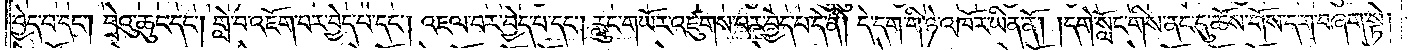བྱེད་པ་དང༌། བྲེའུ་ཆུང་དང༌། གླེ་བ་འཇོག་བར་བྱེད་པ་དང༌། འཇལ་བར་བྱེད་པ་དང༌། རླུང་གཡོར་འཛུགས་པར་བྱེད་པ་དེ་ནི། དེ་དག་གི་ཉེ་འཁོར་ཡིན་ནོ། །དགེ་སློང་གིས་ནང་དུ་ཆོས་གོས་དག་བཞག་སྟེ།
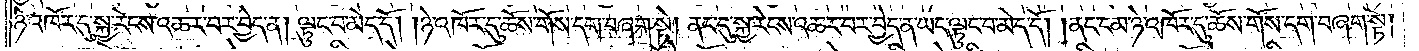ཉེ་འཁོར་དུ་སྐྱ་རེངས་འཆར་བར་བྱེད་ན། ལྟུང་བ་མེད་དོ། །ཉེ་འཁོར་དུ་ཆོས་གོས་དག་བཞག་སྟེ། ནང་དུ་སྐྱ་རེངས་འཆར་བར་བྱེད་ན་ཡང་ལྟུང་བ་མེད་དོ། །ནང་ངམ་ཉེ་འཁོར་དུ་ཆོས་གོས་དག་བཞག་སྟེ།
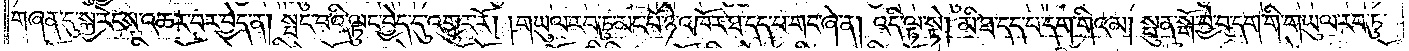གཞན་དུ་སྐྱ་རེངས་འཆར་བར་བྱེད་ན། སྤང་བའི་ལྟུང་བྱེད་དུ་འགྱུར་རོ། །གཡུལ་རབ་ཏུ་མང་པོ་ཉེ་འཁོར་ཐ་དད་པ་གང་ཞེ་ན། འདི་ལྟ་སྟེ། མི་ཐ་དད་པ་དག་གིའམ། སྤུན་སྒོ་བྱེ་བ་དག་གི་གཡུལ་རབ་ཏུ་
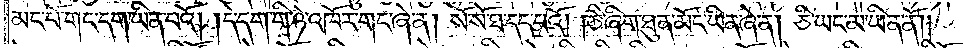མང་པོ་གང་དག་ཡིན་པའོ། །དེ་དག་གི་ཉེ་འཁོར་གང་ཞེ་ན། སོ་སོ་ཐ་དད་པའོ། །ཅི་ཞིག་ཐུན་མོང་ཡིན་ཞེ་ན། ཅི་ཡང་མ་ཡིན་ནོ༎
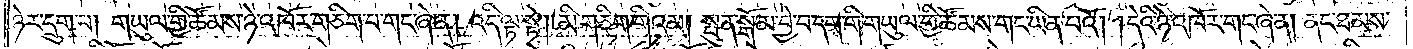ཉེར་དྲུག་པ། གཡུལ་གྱི་ཚོམས་ཉེ་འཁོར་གཅིག་པ་གང་ཞེ་ན། འདི་ལྟ་སྟེ། མི་གཅིག་གིའམ། སྤུན་སྒོ་མ་བྱེ་བ་དག་གི་གཡུལ་གྱི་ཚོམས་གང་ཡིན་པའོ། །དེའི་ཉེ་འཁོར་གང་ཞེ་ན། ནང་ཐམས་
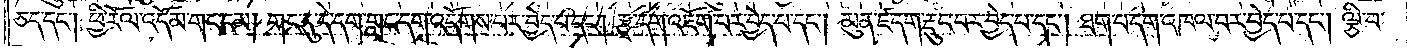ཅད་དང༌། ཕྱི་རོལ་འདོམ་གང་ངམ། གང་དུ་དེ་དག་གླང་དག་འདོགས་པར་བྱེད་པ་དང༌། རྩྭ་དག་འཇོག་པར་བྱེད་པ་དང༌། མུན་ཛ་དག་རྡུང་བར་བྱེད་པ་དང༌། ཐག་པ་དག་འཁལ་བར་བྱེད་པ་དང༌། ལྕི་བ་
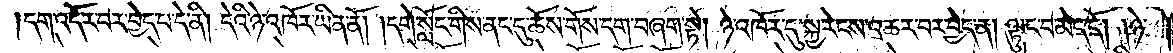དག་འདོར་བར་བྱེད་པ་དེ་ནི། དེའི་ཉེ་འཁོར་ཡིན་ནོ། །དགེ་སློང་གིས་ནང་དུ་ཆོས་གོས་དག་བཞག་སྟེ། ཉེ་འཁོར་དུ་སྐྱ་རེངས་འཆར་བར་བྱེད་ན། ལྟུང་བ་མེད་དོ། །ཉེ་
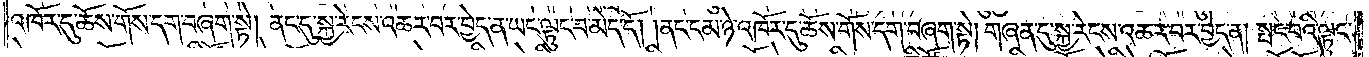འཁོར་དུ་ཆོས་གོས་དག་བཞག་སྟེ། ནང་དུ་སྐྱ་རེངས་འཆར་བར་བྱེད་ན་ཡང་ལྟུང་བ་མེད་དོ། །ནང་ངམ་ཉེ་འཁོར་དུ་ཆོས་གོས་དག་བཞག་སྟེ། གཞན་དུ་སྐྱ་རེངས་འཆར་བར་བྱེད་ན། སྤང་བའི་ལྟུང་
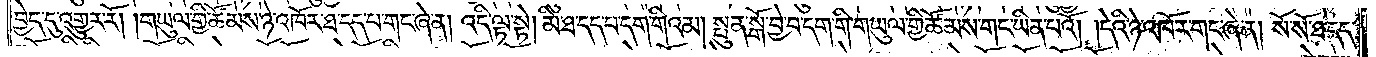བྱེད་དུ་འགྱུར་རོ། །གཡུལ་གྱི་ཚོམས་ཉེ་འཁོར་ཐ་དད་པ་གང་ཞེ་ན། འདི་ལྟ་སྟེ། མི་ཐ་དད་པ་དག་གིའམ། སྤུན་སྒོ་བྱེ་བ་དག་གི་གཡུལ་གྱི་ཚོམས་གང་ཡིན་པའོ། །དེའི་ཉེ་འཁོར་གང་ཞེ་ན། སོ་སོ་ཐ་དད་
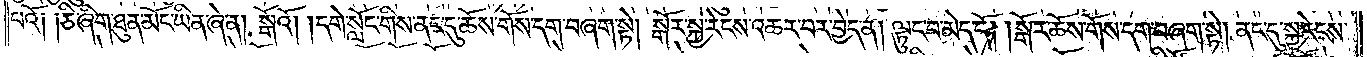པའོ༑ ༑ཅི་ཞིག་ཐུན་མོང་ཡིན་ཞེ་ན། སྒོའོ། །དགེ་སློང་གིས་ནང་དུ་ཆོས་གོས་དག་བཞག་སྟེ། སྒོར་སྐྱ་རེངས་འཆར་བར་བྱེད་ན། ལྟུང་བ་མེད་དོ། །སྒོར་ཆོས་གོས་དག་བཞག་སྟེ། ནང་དུ་སྐྱ་རེངས་
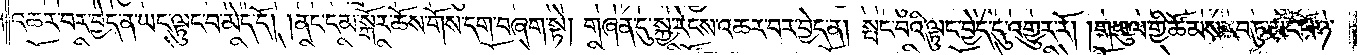འཆར་བར་བྱེད་ན་ཡང་ལྟུང་བ་མེད་དོ། །ནང་ངམ་སྒོར་ཆོས་གོས་དག་བཞག་སྟེ། གཞན་དུ་སྐྱ་རེངས་འཆར་བར་བྱེད་ན། སྤང་པའི་ལྟུང་བྱེད་དུ་འགྱུར་རོ། །གཡུལ་གྱི་ཚོམས་རབ་ཏུ་མང་པོ་ཉེ་
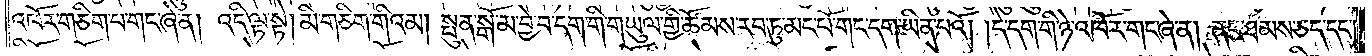འཁོར་གཅིག་པ་གང་ཞེ་ན། འདི་ལྟ་སྟེ། མི་གཅིག་གིའམ། སྤུན་སྒོ་མ་བྱེ་བ་དག་གི་གཡུལ་གྱི་ཚོམས་རབ་ཏུ་མང་པོ་གང་དག་ཡིན་པའོ། །དེ་དག་གི་ཉེ་འཁོར་གང་ཞེ་ན། ནང་ཐམས་ཅད་དང༌།
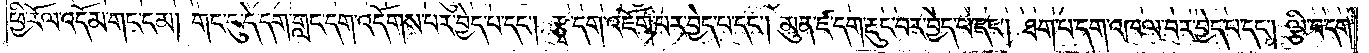ཕྱི་རོལ་འདོམ་གང་ངམ། གང་དུ་དེ་དག་གླང་དག་འདོགས་པར་བྱེད་པ་དང༌། རྩྭ་དག་འཇོག་པར་བྱེད་པ་དང༌། མུན་ཛ་དག་རྡུང་བར་བྱེད་པ་དང༌། ཐག་པ་དག་འཁལ་བར་བྱེད་པ་དང༌། ལྕི་བ་དག་
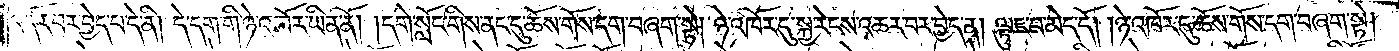འདོར་བར་བྱེད་པ་དེ་ནི། དེ་དག་གི་ཉེ་འཁོར་ཡིན་ནོ། །དགེ་སློང་གིས་ནང་དུ་ཆོས་གོས་དག་བཞག་སྟེ། ཉེ་འཁོར་དུ་སྐྱ་རེངས་འཆར་བར་བྱེད་ན། ལྟུང་བ་མེད་དོ། །ཉེ་འཁོར་དུ་ཆོས་གོས་དག་བཞག་སྟེ།
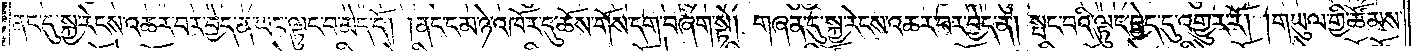ནང་དུ་སྐྱ་རེངས་འཆར་བར་བྱེད་ན་ཡང་ལྟུང་བ་མེད་དོ། །ནང་ངམ་ཉེ་འཁོར་དུ་ཆོས་གོས་དག་བཞག་སྟེ། གཞན་དུ་སྐྱ་རེངས་འཆར་བར་བྱེད་ན། སྤང་བའི་ལྟུང་བྱེད་དུ་འགྱུར་རོ། །གཡུལ་གྱི་ཚོམས་
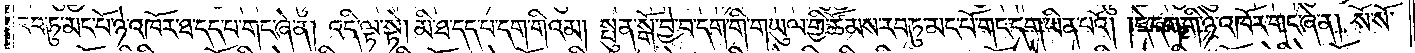རབ་ཏུ་མང་པོ་ཉེ་འཁོར་ཐ་དད་པ་གང་ཞེ་ན། འདི་ལྟ་སྟེ། མི་ཐ་དད་པ་དག་གིའམ། སྤུན་སྒོ་བྱེ་བ་དག་གི་གཡུལ་གྱི་ཚོམས་རབ་ཏུ་མང་པོ་གང་དག་ཡིན་པའོ། །དེ་དག་གི་ཉེ་འཁོར་གང་ཞེ་ན། སོ་སོ་
